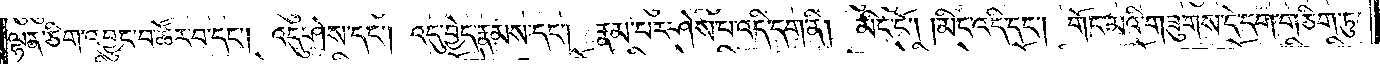ལྷན་ཅིག་འབྱུང་བ་ཚོར་བ་དང༌། འདུ་ཤེས་དང༌། འདུ་བྱེད་རྣམས་དང༌། རྣམ་པར་ཤེས་པ་འདི་དག་ནི། མིང་ངོ༌། །མིང་འདི་དང༌། གོང་མའི་གཟུགས་དེ་དག་གཅིག་ཏུ་
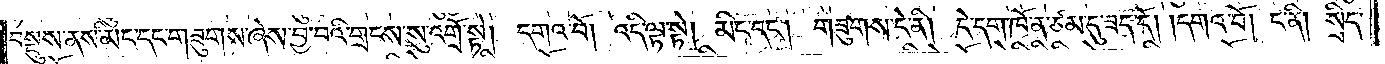བསྡུས་ནས་མིང་དང་གཟུགས་ཞེས་བྱ་བའི་གྲངས་སུ་འགྲོ་སྟེ། དགའ་བོ། འདི་ལྟ་སྟེ། མིང་དང༌། གཟུགས་དེ་ནི། དེ་དག་ཁོ་ན་ཙམ་དུ་ཟད་དོ། །དགའ་བོ། ང་ནི། སྲིད་
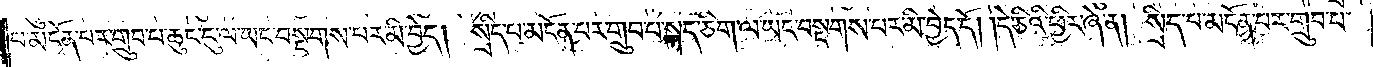པ་མངོན་པར་གྲུབ་པ་ཆུང་དུ་ལ་ཡང་བསྔགས་པར་མི་བྱེད། སྲིད་པ་མངོན་པར་གྲུབ་པ་སྐད་ཅིག་ལ་ཡང་བསྔགས་པར་མི་བྱེད་དོ། །དེ་ཅིའི་ཕྱིར་ཞེ་ན། སྲིད་པ་མངོན་པར་གྲུབ་པ་
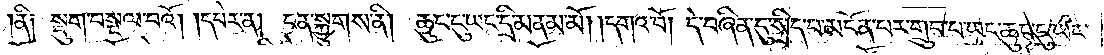ནི། སྡུག་བསྔལ་བའོ། །དཔེར་ན། ངན་སྐྱུགས་ནི། ཆུང་ངུ་ཡང་དྲི་མནམ་མོ། །དགའ་བོ། དེ་བཞིན་དུ་སྲིད་པ་མངོན་པར་གྲུབ་པ་ཡང་ཆུང་ངུ་ཡང་
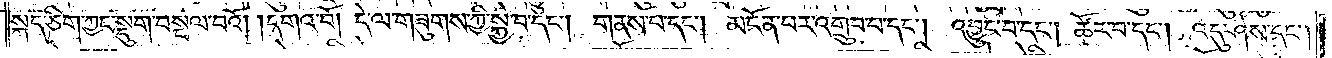སྐད་ཅིག་ཀྱང་སྡུག་བསྔལ་བའོ། །དགའ་བོ། དེ་ལ་གཟུགས་ཀྱི་སྐྱེ་བ་དང༌། གནས་པ་དང༌། མངོན་པར་འགྲུབ་པ་དང༌། འབྱུང་བ་དང༌། ཚོར་བ་དང༌། འདུ་ཤེས་དང༌།
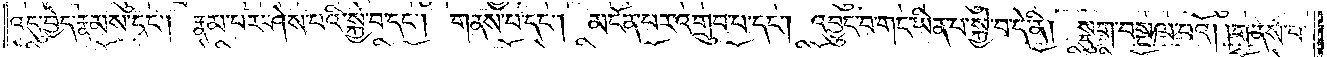འདུ་བྱེད་རྣམས་དང༌། རྣམ་པར་ཤེས་པའི་སྐྱེ་བ་དང༌། གནས་པ་དང༌། མངོན་པར་འགྲུབ་པ་དང༌། འབྱུང་བ་གང་ཡིན་པ་སྐྱེ་བ་དེ་ནི། སྡུག་བསྔལ་བའོ། །གནས་པ་
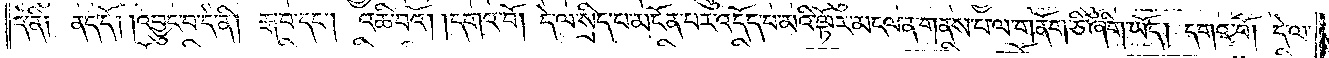དེ་ནི། ནད་དོ། །འབྱུང་བ་དེ་ནི། རྒ་བ་དང༌། འཆི་བའོ། །དགའ་བོ། དེ་ལ་སྲིད་པ་མངོན་པར་འདོད་པ་མའི་ལྟོར་མངལ་ན་གནས་པ་ལ་གནོག་ཅི་ཞིག་ཡོད། དགའ་བོ། དེ་ལ་
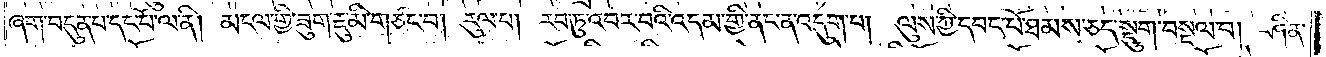ཞག་བདུན་པ་དང་པོ་ལ་ནི། མངལ་གྱི་ཟུག་རྔུ་མི་གཙང་བ། རུལ་པ། རབ་ཏུ་འབར་བའི་འདམ་གྱི་ནང་ན་འདུག་པ། ལུས་ཀྱི་དབང་པོ་ཐམས་ཅད་སྡུག་བསྔལ་བ། ཤིན་
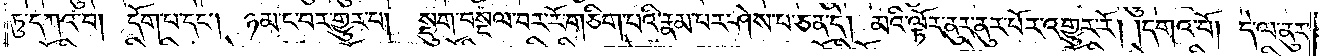ཏུ་དཀའ་བ། དོག་པ་དང༌། ཉམ་ང་བར་གྱུར་པ། སྡུག་བསྔལ་བར་རོ་གཅིག་པའི་རྣམ་པར་ཤེས་པ་ཅན་དེ། མའི་ལྟོར་ནུར་ནུར་པོར་འགྱུར་རོ། །དགའ་བོ། དེ་ལ་ནུར་
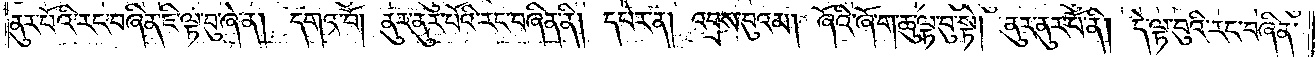ནུར་པོའི་རང་བཞིན་ཇི་ལྟ་བུ་ཞེ་ན། དགའ་བོ། ནུར་ནུར་པོའི་རང་བཞིན་ནི། དཔེར་ན། འབྲས་བུའམ། ཞོའི་ཞོ་ག་ཆུ་ལྟ་བུ་སྟེ། ནུར་ནུར་པོ་ནི། དེ་ལྟ་བུའི་རང་བཞིན་
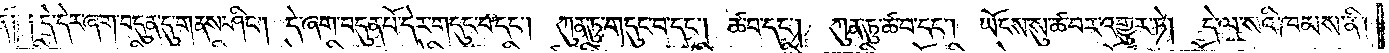ནོ། །དེ་དེར་ཞག་བདུན་དུ་གནས་ཤིང༌། དེ་ཞག་བདུན་པོ་དེར་གདུང་བ་དང༌། ཀུན་ཏུ་གདུང་བ་དང༌། ཚ་བ་དང༌། ཀུན་ཏུ་ཚ་བ་དང༌། ཡོངས་སུ་ཚ་བར་འགྱུར་ཏེ། དེ་ལ་སའི་ཁམས་ནི་
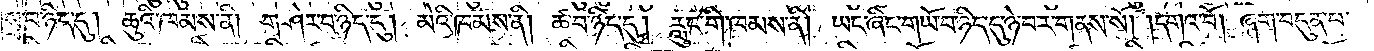སྲ་བ་ཉིད་དུ། ཆུའི་ཁམས་ནི། གཤེར་བ་ཉིད་དུ། མེའི་ཁམས་ནི། ཚ་བ་ཉིད་དུ། རླུང་གི་ཁམས་ནི། ཡང་ཞིང་གཡོ་བ་ཉིད་དུ་ཉེ་བར་གནས་སོ། །དགའ་བོ། ཞག་བདུན་པ་
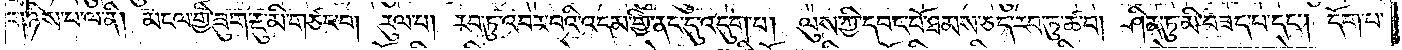གཉིས་པ་ལ་ནི། མངལ་གྱི་ཟུག་རྔུ་མི་གཙང་བ། རུལ་པ། རབ་ཏུ་འབར་བའི་འདམ་གྱི་ནང་དུ་འདུག་པ། ལུས་ཀྱི་དབང་པོ་ཐམས་ཅད་རབ་ཏུ་ཚ་བ། ཤིན་ཏུ་མི་བཟད་པ་དང༌། དོག་པ་
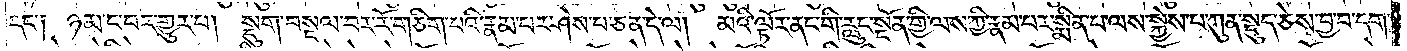དང༌། ཉམ་ང་བར་གྱུར་པ། སྡུག་བསྔལ་བར་རོ་གཅིག་པའི་རྣམ་པར་ཤེས་པ་ཅན་དེ་ལ། མའི་ལྟོར་ནང་གི་རླུང་སྔོན་གྱི་ལས་ཀྱི་རྣམ་པར་སྨིན་པ་ལས་སྐྱེས་པ་ཀུན་སྡུད་ཅེས་བྱ་བ་དག་
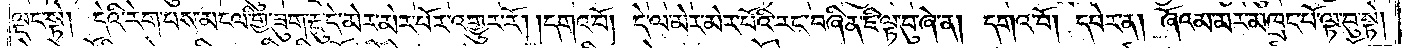ལྡང་སྟེ། དེའི་རེག་པས་མངལ་གྱི་ཟུག་རྔུ་དེ་མེར་མེར་པོར་འགྱུར་རོ། །དགའ་བོ། དེ་ལ་མེར་མེར་པོའི་རང་བཞིན་ཇི་ལྟ་བུ་ཞེ་ན། དགའ་བོ། དཔེར་ན། ཞོའམ་མར་མཁྲང་པོ་ལྟ་བུ་སྟེ།
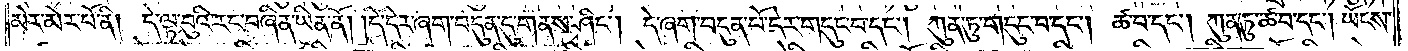མེར་མེར་པོ་ནི། དེ་ལྟ་བུའི་རང་བཞིན་ཡིན་ནོ། །དེ་དེར་ཞག་བདུན་དུ་གནས་ཤིང༌། དེ་ཞག་བདུན་པོ་དེར་གདུང་བ་དང༌། ཀུན་ཏུ་གདུང་བ་དང༌། ཚ་བ་དང༌། ཀུན་ཏུ་ཚ་བ་དང༌། ཡོངས་
